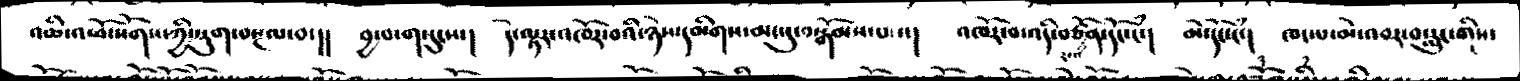འཆི་འཕོ་སོགས་ཀྱི་སྡུག་བསྔལ་བ་།།   བྱ་བ་གསུངས་།    དེ་ལྟར་འཁོར་བའི་ཉེས་དམིགས་མང་དུ་བསྒོམས་པ་དང།   འཁོར་བ་འདི་བཙོན་རལ་དངོསཾ་།  མེ་དངོསཾ་།   ཁང་པ་མེ་འབར་བསྲུང་གིས་
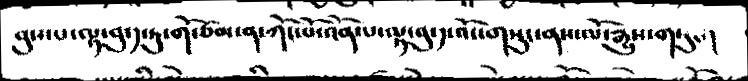ནུས་པ་ལྟ་བུ་༡་ཏུ་གོ་ཙམ་ན་ཀོང་པོ་འོན་པ་ལྟ་བུ་༡་འོང་གསུང་ནས་ལོ་རྒྱུས་གསུང་།
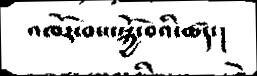འཁོར་བས་སྐྱོ་བའི་ཚད་།
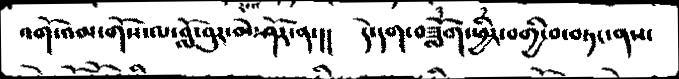འགོ་འམ་གོས་ལ་བློ་བུར་མེ་ཤོར་ན་།།     དེ་དག་བཟློག་ཕྱིར་བགྱི་བ་བཏང་ནས་
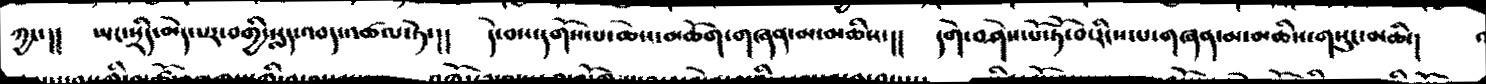ཀྱང་།།   ཡང་སྲིད་མེད་པར་བགྱི་སླད་འབད་འཚལ་ཏེ་།།   དེ་བས་དགོས་པ་ཆེས་མཆོག་གཞན་མ་མཆིས་།།   དགེ་བཤེས་པོ་ཏོ་བ་རིངས་པ་གཞན་མ་མཆིས་གསུང་མཆི་།
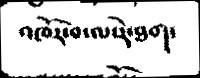འཁོར་བ་ལ་རེ་ཐག་
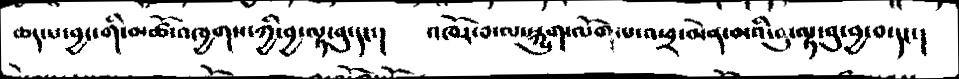ཆད་པ་བྱང་གི་མཚོ་འཁྱགས་ཀྱི་བྱ་ལྟ་བུ་དང་།     འཁོར་བ་ལ་སྐྱུག་ལོག་པ་འཕྲ་མེན་མའི་བུ་ལྟ་བུ་བྱ་བ་དང་།
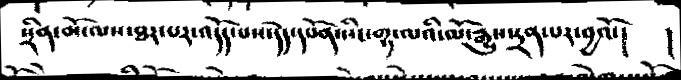སྲིན་མོ་ལས་ཐར་པར་འདོད་པས་དེད་དཔོན་སིང་གྷ་ལའི་ལོ་རྒྱུས་དྲན་པར་བྱའོ་།    །
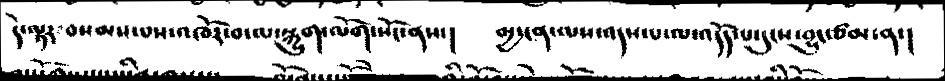དེ་ལྟ་བསམས་པས་འཁོར་བ་ལ་སྐྱུག་ལོག་སོང་ནས་།    མྱ་ངན་ལས་འདས་པ་ལ་འདོད་པ་དུངས་བྱུང་ཙམ་ན་།
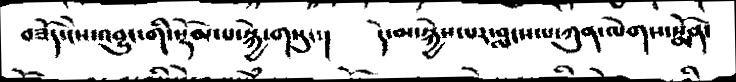བཟོད་ངེས་འབྱུང་གི་སྡོམ་པ་སྐྱེ་གསུང་།   དེ་མ་སྐྱེས་པར་བླངས་པ་ཀུན་ལེགས་སྨོན་
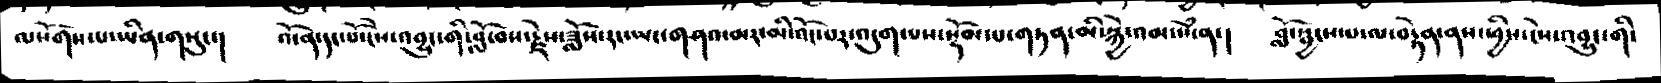ལསོགས་པ་ཡིན་གསུང་།   འོ་ན་དང་པོ་ངེས་འབྱུང་གི་བློ་བས་རྗེས་ཟློས་རང་ཡང་གཤའ་མར་མི་འོང་པར་འདུག་པས་སྡོམ་པ་གཏན་མི་སྐྱེ་འམ་སེཾན་།   བློ་སྦྱངས་པ་ལ་བརྟེན་ནས་ཕྱིས་ངེས་འབྱུང་གི་
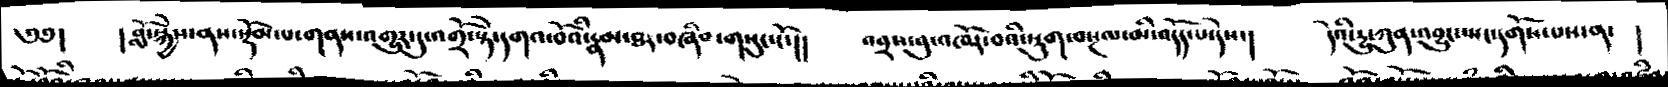༅༅།    །བློ་སྐྱེས་ནས་སྡོམ་པ་གནས་འགྱུར་དུ་འགྲོ་སྟེ་དགའ་བོའི་རྣམ་ཐར་བཞིབ་གསུངསོ་།།   འབྲས་བུ་འཁོར་བའི་སྡུག་བསྔལ་མི་འདོད་པ་དེས་།    དེའི་རྱུ་ཀུན་འབྱུང་སྤང་དགོས་པས་ན་  །
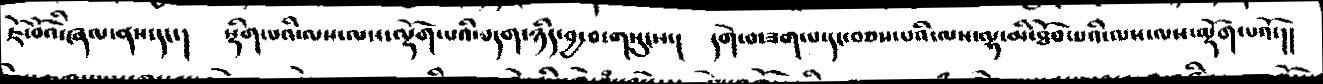ཇོ་བོའི་ཞལ་ནས་དང་།   སྡིག་པའི་ལས་ལས་ལྡོག་པའི་བདག་ཉིད་བྱ་བ་གསུངས་།   དགེ་བ་ཟག་པ་དང་བཅས་པའི་ལས་ལྷ་མི་ཐོབ་པའི་ལས་ལས་ལྡོག་པའོ་།།
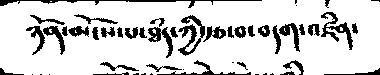ཉོན་མོངས་པ་ཐཾད་ཀྱི་རྩ་བ་བདག་འཛིན་
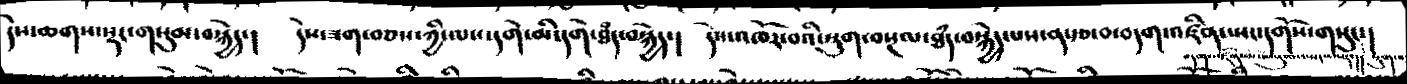དེས་ཆགས་སྡང་གསུམ་བསྐྱེད་།   དེས་ཟག་བཅས་ཀྱི་ལས་དགེ་མི་དགེ་ཐཾད་བསྐྱེད་།    དེས་འཁོར་བའི་སྡུག་བསྔལ་ཐཾད་བསྐྱེད་པས་ན་རྩ་བ་བདག་འཛིན་སྤང་དགོས་གསུང་།
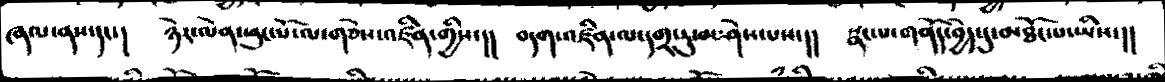ཞལ་ནས་དང་།   ཉེར་ལེན་ཕུང་པོ་ལ་གཅེས་འཛིན་གྱིས་།།   བདག་འཛིན་ལ་དགྲ་རུ་མ་ཤེས་པས་།།    སྣང་པ་གནོད་བྱེད་དུ་མཐོང་པ་ཡིན་།།
